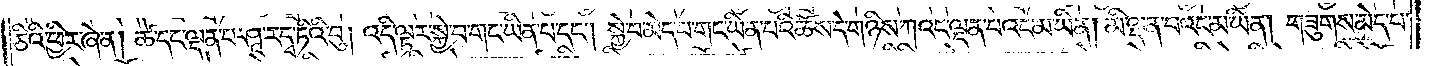ཅིའི་ཕྱིར་ཞེ་ན། ཚེ་དང་ལྡན་པ་ཤཱ་ར་དྭ་ཏིའི་བུ། འདི་ལྟར་སྐྱེ་བ་གང་ཡིན་པ་དང༌། སྐྱེ་བ་མེད་པ་གང་ཡིན་པའི་ཆོས་དེ་གཉིས་ཀའང་ལྡན་པའང་མ་ཡིན་མི་ལྡན་པའང་མ་ཡིན། གཟུགས་མེད་པ་
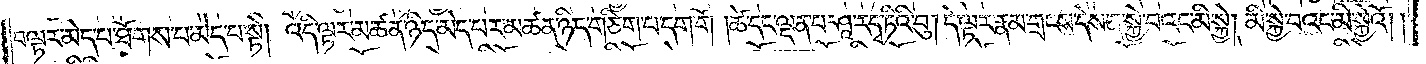བལྟར་མེད་པ་ཐོགས་པ་མེད་པ་སྟེ། འདི་ལྟར་མཚན་ཉིད་མེད་པར་མཚན་ཉིད་གཅིག་པ་དག་གོ །ཚེ་དང་ལྡན་པ་ཤཱ་ར་དྭ་ཏིའི་བུ། དེ་ལྟར་རྣམ་གྲངས་དེས་ན་སྐྱེ་བའང་མི་སྐྱེ། མི་སྐྱེ་བའང་མི་སྐྱེའོ། །
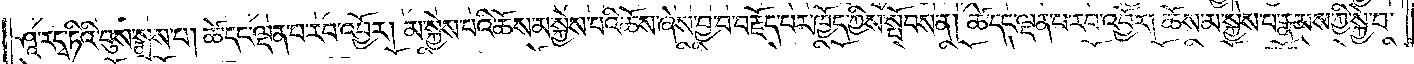ཤཱ་ར་དྭ་ཏིའི་བུས་སྨྲས་པ། ཚེ་དང་ལྡན་པ་རབ་འབྱོར། མ་སྐྱེས་པའི་ཆོས་མ་སྐྱེས་པའི་ཆོས་ཞེས་བྱ་བ་བརྗོད་པར་ཁྱོད་ཀྱིས་སྤོབས་ན། ཚེ་དང་ལྡན་པ་རབ་འབྱོར། ཆོས་མ་སྐྱེས་པ་རྣམས་ཀྱི་སྐྱེ་བ་
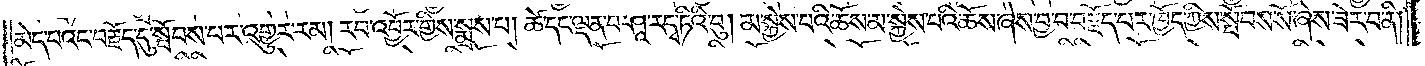མེད་པའང་བརྗོད་དུ་སྤོབས་པར་འགྱུར་རམ། རབ་འབྱོར་གྱིས་སྨྲས་པ། ཚེ་དང་ལྡན་པ་ཤཱ་ར་དྭ་ཏིའི་བུ། མ་སྐྱེས་པའི་ཆོས་མ་སྐྱེས་པའི་ཆོས་ཞེས་བྱ་བ་བརྗོད་པར་ཁྱོད་ཀྱིས་སྤོབས་སོ་ཞེས་ཟེར་བ་ནི།
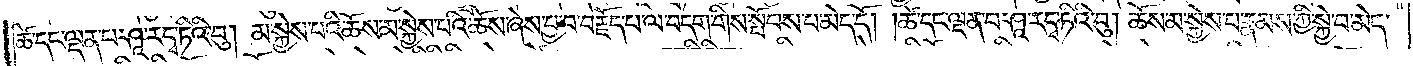ཚེ་དང་ལྡན་པ་ཤཱ་ར་དྭ་ཏིའི་བུ། མ་སྐྱེས་པའི་ཆོས་མ་སྐྱེས་པའི་ཆོས་ཞེས་བྱ་བ་བརྗོད་པ་ལ་བདག་གིས་སྤོབས་པ་མེད་དོ། །ཚེ་དང་ལྡན་པ་ཤཱ་ར་དྭ་ཏིའི་བུ། ཆོས་མ་སྐྱེས་པ་རྣམས་ཀྱི་སྐྱེ་བ་མེད་
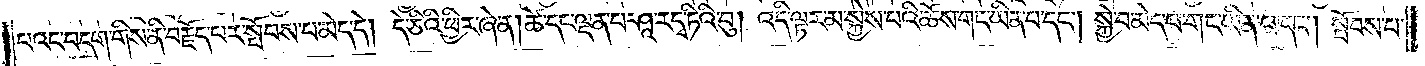པའང་བདག་གིས་ནི་བརྗོད་པར་སྤོབས་པ་མེད་དེ། དེ་ཅིའི་ཕྱིར་ཞེ་ན། ཚེ་དང་ལྡན་པ་ཤཱ་ར་དྭ་ཏིའི་བུ། འདི་ལྟར་མ་སྐྱེས་པའི་ཆོས་གང་ཡིན་པ་དང༌། སྐྱེ་བ་མེད་པ་གང་ཡིན་པ་དང༌། སྤོབས་པ་
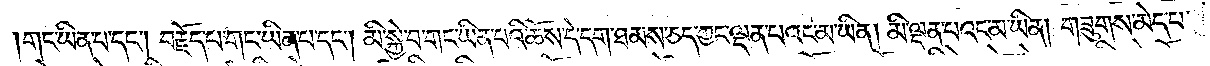གང་ཡིན་པ་དང༌། བརྗོད་པ་གང་ཡིན་པ་དང༌། མི་སྐྱེ་བ་གང་ཡིན་པའི་ཆོས་དེ་དག་ཐམས་ཅད་ཀྱང་ལྡན་པའང་མ་ཡིན། མི་ལྡན་པའང་མ་ཡིན། གཟུགས་མེད་པ་
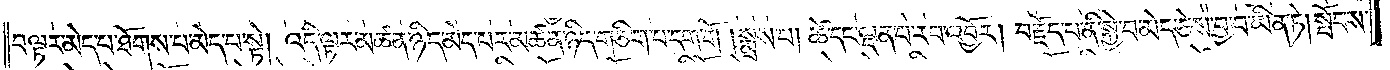བལྟར་མེད་པ་ཐོགས་པ་མེད་པ་སྟེ། འདི་ལྟར་མཚན་ཉིད་མེད་པར་མཚན་ཉིད་གཅིག་པ་དག་གོ །སྨྲས་པ། ཚེ་དང་ལྡན་པ་རབ་འབྱོར། བརྗོད་པ་ནི་སྐྱེ་བ་མེད་ཅེས་བྱ་བ་ཡིན་ཏེ། སྤོབས་
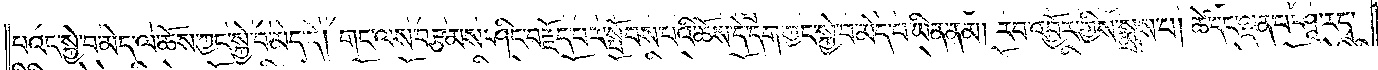པའང་སྐྱེ་བ་མེད་ལ་ཆོས་ཀྱང་སྐྱེ་བ་མེད་དེ། གང་ལས་བརྩམས་ཤིང་བརྗོད་པར་སྤོབས་པའི་ཆོས་དེ་དག་ཀྱང་སྐྱེ་བ་མེད་པ་ཡིན་ནམ། རབ་འབྱོར་གྱིས་སྨྲས་པ། ཚེ་དང་ལྡན་པ་ཤཱ་ར་དྭ་
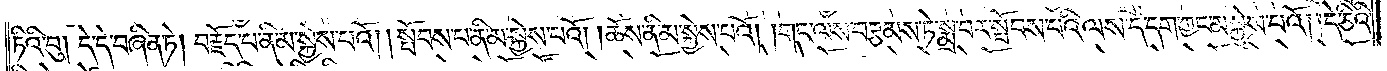ཏིའི་བུ། དེ་དེ་བཞིན་ཏེ། བརྗོད་པ་ནི་མ་སྐྱེས་པའོ། །སྤོབས་པ་ནི་མ་སྐྱེས་པའོ། །ཆོས་ནི་མ་སྐྱེས་པའོ། །གང་ལས་བརྩམས་ཏེ་སྨྲ་བར་སྤོབས་པའི་ལས་དེ་དག་ཀྱང་མ་སྐྱེས་པའོ། །དེ་ཅིའི་
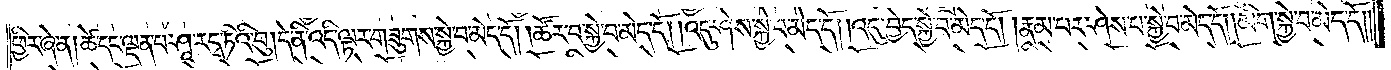ཕྱིར་ཞེ་ན། ཚེ་དང་ལྡན་པ་ཤཱ་ར་དྭ་ཏིའི་བུ། དེ་ནི་འདི་ལྟར་གཟུགས་སྐྱེ་བ་མེད་དོ། །ཚོར་བ་སྐྱེ་བ་མེད་དོ། །འདུ་ཤེས་སྐྱེ་བ་མེད་དོ། །འདུ་བྱེད་སྐྱེ་བ་མེད་དོ། །རྣམ་པར་ཤེས་པ་སྐྱེ་བ་མེད་དོ། །མིག་སྐྱེ་བ་མེད་དོ། །
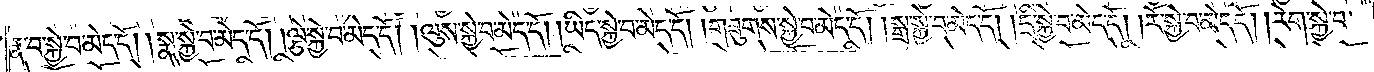རྣ་བ་སྐྱེ་བ་མེད་དོ། །སྣ་སྐྱེ་བ་མེད་དོ། །ལྕེ་སྐྱེ་བ་མེད་དོ། །ལུས་སྐྱེ་བ་མེད་དོ། །ཡིད་སྐྱེ་བ་མེད་དོ། །གཟུགས་སྐྱེ་བ་མེད་དོ། །སྒྲ་སྐྱེ་བ་མེད་དོ། །དྲི་སྐྱེ་བ་མེད་དོ། །རོ་སྐྱེ་བ་མེད་དོ། །རེག་སྐྱེ་བ་
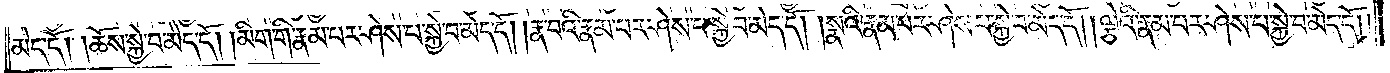མེད་དོ། །ཆོས་སྐྱེ་བ་མེད་དོ། །མིག་གི་རྣམ་པར་ཤེས་པ་སྐྱེ་བ་མེད་དོ། །རྣ་བའི་རྣམ་པར་ཤེས་པ་སྐྱེ་བ་མེད་དོ། །སྣའི་རྣམ་པར་ཤེས་པའི་སྐྱེ་བ་མེད་དོ། །ལྕེའི་རྣམ་པར་ཤེས་པ་སྐྱེ་བ་མེད་དོ། །
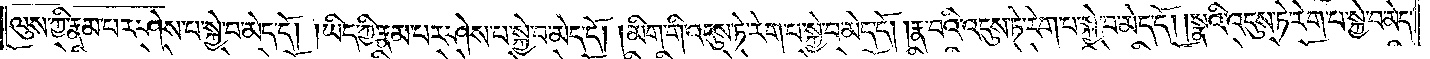ལུས་ཀྱི་རྣམ་པར་ཤེས་པ་སྐྱེ་བ་མེད་དོ། །ཡིད་ཀྱི་རྣམ་པར་ཤེས་པ་སྐྱེ་བ་མེད་དོ། །མིག་གི་འདུས་ཏེ་རེག་པ་སྐྱེ་བ་མེད་དོ། །རྣ་བའི་འདུས་ཏེ་རེག་པ་སྐྱེ་བ་མེད་དོ། །སྣའི་འདུས་ཏེ་རེག་པ་སྐྱེ་བ་མེད་
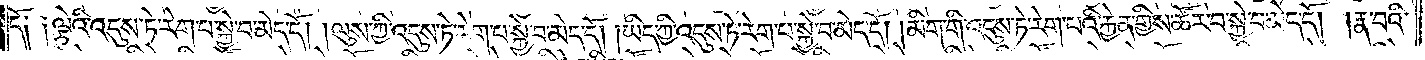དོ༏ ༏ལྕེའི་འདུས་ཏེ་རེག་པ་སྐྱེ་བ་མེད་དོ། །ལུས་ཀྱི་འདུས་ཏེ་རེག་པ་སྐྱེ་བ་མེད་དོ། །ཡིད་ཀྱི་འདུས་ཏེ་རེག་པ་སྐྱེ་བ་མེད་དོ། །མིག་གི་འདུས་ཏེ་རེག་པའི་རྐྱེན་གྱིས་ཚོར་བ་སྐྱེ་བ་མེད་དོ། །རྣ་བའི་
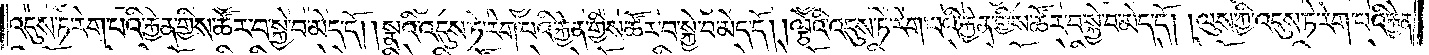འདུས་ཏེ་རེག་པའི་རྐྱེན་གྱིས་ཚོར་བ་སྐྱེ་བ་མེད་དོ། །སྣའི་འདུས་ཏེ་རེག་པའི་རྐྱེན་གྱིས་ཚོར་བ་སྐྱེ་བ་མེད་དོ། །ལྕེའི་འདུས་ཏེ་རེག་པའི་རྐྱེན་གྱིས་ཚོར་བ་སྐྱེ་བ་མེད་དོ། །ལུས་ཀྱི་འདུས་ཏེ་རེག་པའི་རྐྱེན་
